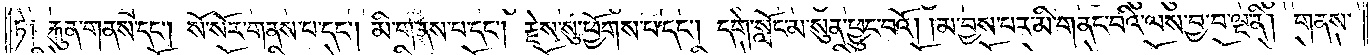ཏེ༑ རྐུན་གནས་དང༌། སོ་སོར་གནས་པ་དང༌། མི་གནས་པ་དང༌། རྗེས་སུ་ཕྱོགས་པ་དང༌། དགེ་སློང་མ་སུན་ཕྱུང་བའོ། །མ་བྱས་པར་མི་གནང་བའི་ལས་བྱ་བ་ལྔ་ནི། གནས་
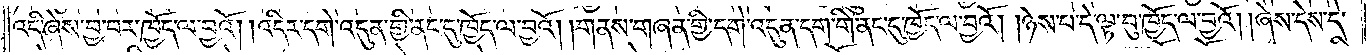འདི་ཞེས་བྱ་བར་ཁྱོད་ལ་བྱའོ། །འདིར་དགེ་འདུན་གྱི་ནང་དུ་ཁྱོད་ལ་བྱའོ། །གནས་གཞན་གྱི་དགེ་འདུན་དག་གི་ནང་དུ་ཁྱོད་ལ་བྱའོ། །ཉེས་པ་དེ་ལྟ་བུ་ཁྱོད་ལ་བྱའོ། ཞེས་དེས་དེ་
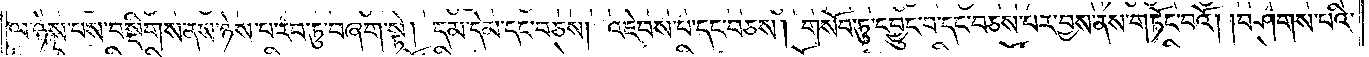ལ་ཉེས་པས་བསྡིགས་ནས་ཉེས་པ་རབ་ཏུ་བཞག་སྟེ། དམ་དེམ་དང་བཅས། འཇེབས་པ་དང་བཅས། གསེབ་ཏུ་དབྱུང་བ་དང་བཅས་པར་བྱས་ནས་གཏོང་བའོ། །བཤགས་པའི་
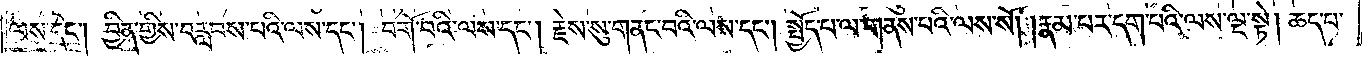ལས་དང༌། བྱིན་གྱིས་བརླབས་པའི་ལས་དང༌། བགོ་བའི་ལས་དང༌། རྗེས་སུ་གནང་བའི་ལས་དང༌། སྤྱོད་པ་ལ་གནས་པའི་ལས་སོ། །རྣམ་པར་དག་པའི་ལས་ལྔ་སྟེ། ཆད་པ་
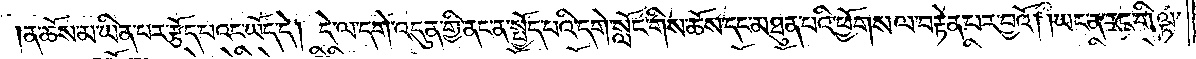ན་ཆོས་མ་ཡིན་པར་རྩོད་པའང་ཡོད་དེ། དེ་ལ་དགེ་འདུན་གྱི་ནང་ན་སྤྱོད་པའི་དགེ་སློང་གིས་ཆོས་དང་མཐུན་པའི་ཕྱོགས་ལ་བརྟེན་པར་བྱའོ། །ཡང་ན་རང་གི་ལྟ་
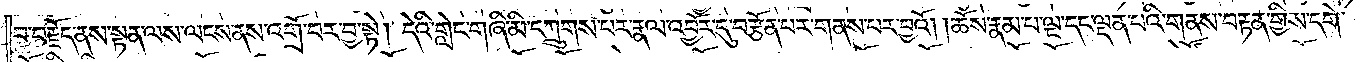བ་བརྗོད་ནས་སྟན་ལས་ལངས་ནས་འགྲོ་བར་བྱ་སྟེ། དེའི་གླེང་གཞི་མི་དཀྲུགས་པར་རྣལ་འབྱོར་དུ་བརྩོན་པར་གནས་པར་བྱའོ། །ཆོས་རྣམ་པ་ལྔ་དང་ལྡན་པའི་གནས་བརྟན་གྱིས་དགེ་
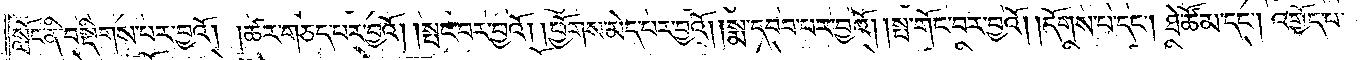སློང་ནི་བསྡིགས་པར་བྱའོ། །ཚར་གཅད་པར་བྱའོ། །སྤང་བར་བྱའོ། །ཕྱོགས་མེད་པར་བྱའོ། །སྨ་དབབ་པར་བྱའོ། །སྤ་གོང་བར་བྱའོ། །དོགས་པ་དང༌། ཐེ་ཚོམ་དང༌། འགྱོད་པ་
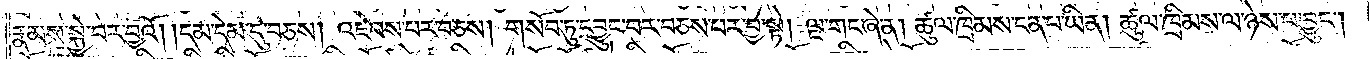རྣམས་སྐྱེ་བར་བྱའོ། །དམ་དེམ་དུ་བཅས། འཇེབས་པར་བཅས། གསོབ་ཏུ་དབྱུང་བར་བཅས་པར་བྱ་སྟེ། ལྔ་གང་ཞེ་ན། ཚུལ་ཁྲིམས་ངན་པ་ཡིན། ཚུལ་ཁྲིམས་ལ་ཉེས་པ་བྱུང༌།
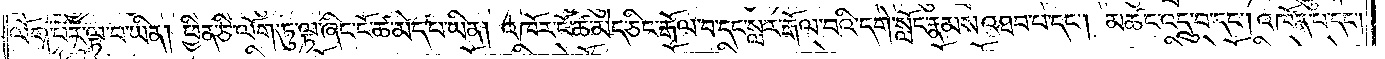ལོག་པར་ལྟ་བ་ཡིན། ཕྱིན་ཅི་ལོག་ཏུ་ལྟ་ཞིང་ངོ་ཚ་མེད་པ་ཡིན། འཁོར་ངོ་ཚ་མེད་ཅིང་རྒོལ་བ་དང་སླར་རྒོལ་བའི་དགེ་སློང་རྣམས་འཐབ་པ་དང༌། མཚང་འདྲུ་བ་དང༌། འཁོན་པ་དང༌།
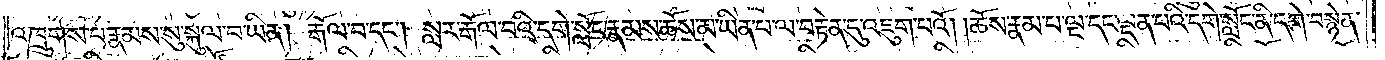འཁྲུགས་པ་རྣམས་སུ་སྐུལ་བ་ཡིན། རྒོལ་བ་དང༌། སླར་རྒོལ་བའི་དགེ་སློང་རྣམས་ཆོས་མ་ཡིན་པ་ལ་བརྟེན་དུ་འཇུག་པའོ། །ཆོས་རྣམ་པ་ལྔ་དང་ལྡན་པའི་དགེ་སློང་ནི་དགེ་བསྙེན་
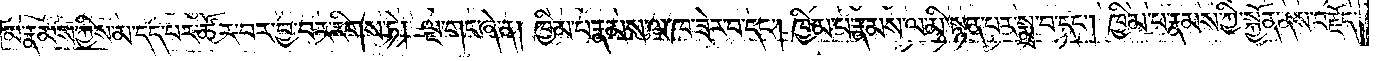མ་རྣམས་ཀྱིས་མ་དད་པར་ཚོར་བར་བྱ་བར་རིགས་ཏེ། ལྔ་གང་ཞེ་ན། ཁྱིམ་པ་རྣམས་ལ་ཁ་ཟེར་བ་དང༌། ཁྱིམ་པ་རྣམས་ལ་མི་སྙན་པར་སྨྲ་བ་དང༌། ཁྱིམ་པ་རྣམས་ཀྱི་སྐྱོན་ནས་བརྗོད་
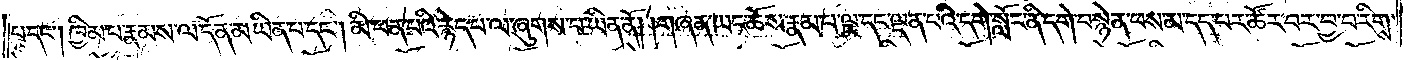བ་དང༌། ཁྱིམ་པ་རྣམས་ལ་དོན་མ་ཡིན་པ་དང༌། མི་ཕན་པའི་རྙེད་པ་ལ་ཞུགས་པ་ཡིན་ནོ། །གཞན་ཡང་ཆོས་རྣམ་པ་ལྔ་དང་ལྡན་པའི་དགེ་སློང་ནི་དགེ་བསྙེན་ཕས་མ་དད་པར་ཚོར་བར་བྱ་བ་རིགས་
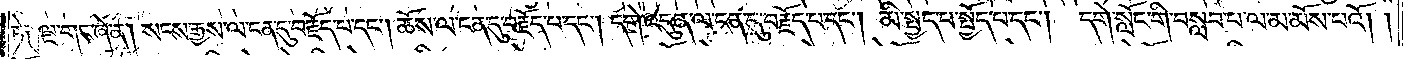ཏེ༑ ལྔ་གང་ཞེ་ན། སངས་རྒྱས་ལ་ངན་དུ་བརྗོད་པ་དང༌། ཆོས་ལ་ངན་དུ་བརྗོད་པ་དང༌། དགེ་འདུན་ལ་ངན་དུ་བརྗོད་པ་དང༌། མི་སྤྱད་པ་སྤྱོད་པ་དང༌། དགེ་སློང་གི་བསླབ་པ་ལ་མ་མོས་པའོ། །
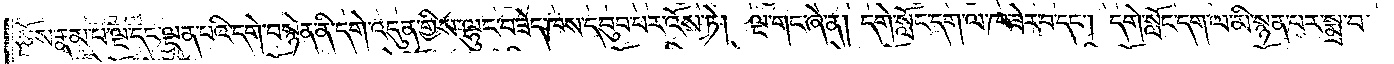ཆོས་རྣམ་པ་ལྔ་དང་ལྡན་པའི་དགེ་བསྙེན་ནི་དགེ་འདུན་གྱིས་ལྷུང་བཟེད་ཁས་དབུབ་པར་འོས་ཏེ། ལྔ་གང་ཞེ་ན། དགེ་སློང་དག་ལ་ཁ་ཟེར་བ་དང༌། དགེ་སློང་དག་ལ་མི་སྙན་པར་སྨྲ་བ་
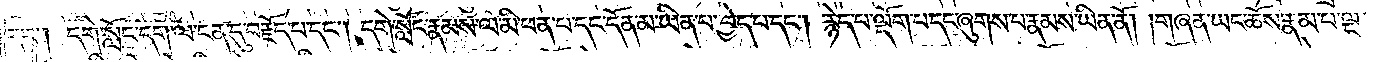དང༌། དགེ་སློང་དག་ལ་ངན་དུ་བརྗོད་པ་དང༌། དགེ་སློང་རྣམས་ལ་མི་ཕན་པ་དང་དོན་མ་ཡིན་པ་བྱེད་པ་དང༌། རྙེད་པ་ལྡོག་པ་དང་ཞུགས་པ་རྣམས་ཡིན་ནོ། །གཞན་ཡང་ཆོས་རྣམ་པ་ལྔ་
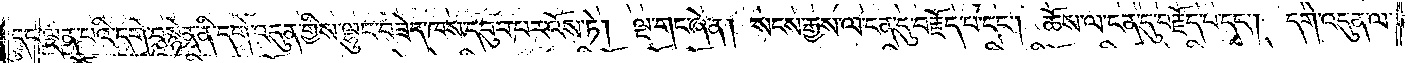དང་ལྡན་པའི་དགེ་བསྙེན་ནི་དགེ་འདུན་གྱིས་ལྷུང་བཟེད་ཁས་དབུབ་པར་འོས་ཏེ། ལྔ་གང་ཞེ་ན། སངས་རྒྱས་ལ་ངན་དུ་བརྗོད་པ་དང༌། ཆོས་ལ་ངན་དུ་བརྗོད་པ་དང༌། དགེ་འདུན་ལ་
